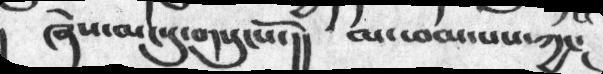ཞེས་མང་དུ་གསུངསོ་།།  མ་ཕམ་པས་ཀྱང།
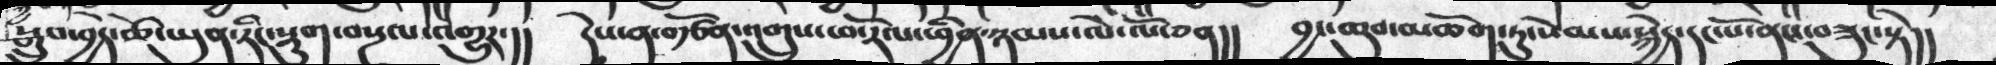སྒྲུབ་བྱེད་ཚེ་ཡུན་རིང་སྡུག་བསྔལ་འགྱུར་།།  དེས་ན་བརྩོན་འགྲུས་ཕ་རོལ་ཕྱིན་ཉམས་ལེ་ལོ་ཅན།།  བྱང་ཆུབ་མཆོག་ཏུ་སེམས་སྐྱེད་དང་པོ་ནང་བཟུང་སྟེ།།
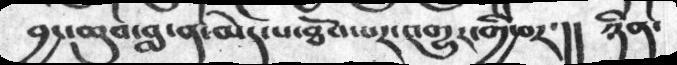བྱང་ཆུབ་བླ་ན་མེད་པ་ཐོབ་པར་འགྱུར་བར་།།  ཉིན་
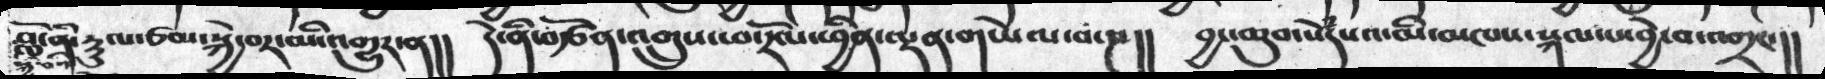བློ་ནི་རྱུལ་ཙམ་སྐྱེ་བར་མི་འགྱུར་ན།།   དེ་ནི་བརྩོན་འགྲུས་ཕ་རོལ་ལྡན་གཡེལ་བ་ཎ།།   བྱང་ཆུབ་སེཾདསའ་མི་མཁས་སྐལ་པ་བྱེད་བ་འགྲང་།།
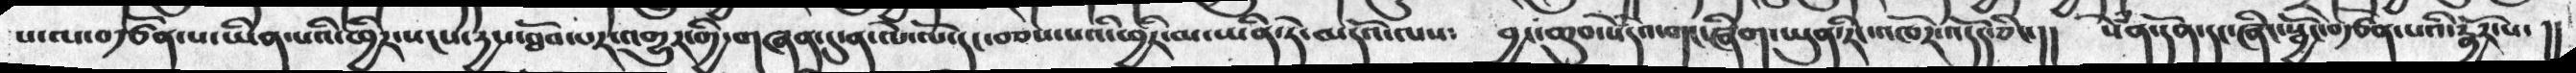པ་ལ་བརྩོན་པ་ཡིན་པའི་ཕྱིར་སངས་དྱས་ཐོབ་པར་འགྱུར་གྱི་གཞན་དུ་ན་ལེ་ལོ་དང་བཅས་པའི་ཕྱིར་མ་ཡིན་ཏེ་མདོའ་ལས༴  བྱང་ཆུབ་སེཾདཔའ་གང་ཞིག་ཡུན་རིང་འཁོར་འདོད་ཅིང།།   སེཾན་དོན་དང་ཞིང་སྦྱོང་བརྩོན་པའི་སྦྱོར་པ་།།
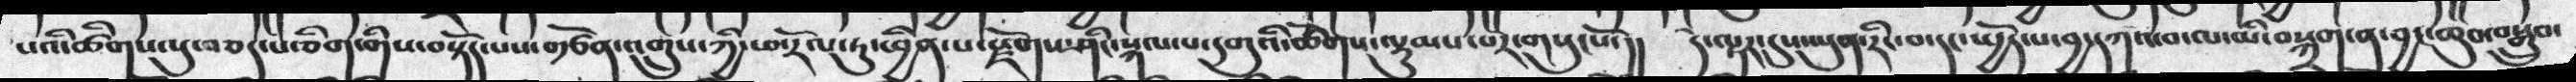པའི་ཚིགས་སུ་བཅད་པ་ཅིག་གིས་བསྟོད་པས་བརྩོན་འགྲུས་ཀྱི་ཕ་རོལ་ཏུ་ཕྱིན་པ་རྫོགས་ཤིང་སྐལ་པ་དགུའི་ཚོགས་ལྟུམས་པར་གསུངསོ་།།  དེ་ལྟར་དུ་ཡུན་རིང་བ་དང་སྤྱོད་པ་བྱ་དཀའ་བ་ལ་མི་བསྐྲག་ན་བྱང་ཆུབ་བསྒྲུབ་
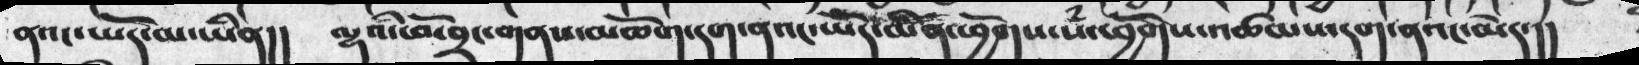ནའང་ཡོད་མ་ཡིན།།  ལྷའི་ཕོ་བྲང་གནས་མཆོག་དག་ནའང་ཡོད་མིན་ཕྱོགས་སཾ་ཕྱོགས་འཚམས་དག་ནའང་མེད་།།
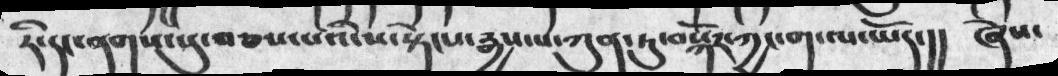རི་དང་ནགས་སུ་བཅས་པའི་ས་སྟེངས་རྒྱས་པ་ཀུན་ཏུ་བསྐོར་ཀྱང་ག་ལ་ཡོད་།།  ཞེས་
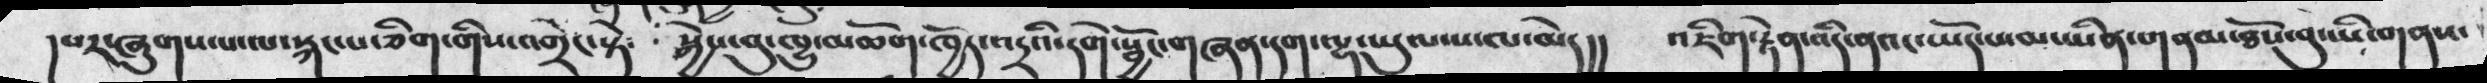དཔར་ཞུགས་པ་ལ་སྐང་པ་ཅིག་གིས་འགྲེང་སྟེ༴  སྐྱེས་བུ་ཁྱུ་མཆོག་ཁྱོད་འདྲའི་དགེ་སྦྱོང་གཞན་དག་ལྷ་ཡུལ་ས་ལ་མེད།།  འཇིག་རྟེན་འདི་ནའང་ཡོད་པ་མ་ཡིན་གནམ་ཐོས་བུ་ཡི་གནས་
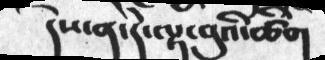དེས་ན་དེ་ལྟ་བུའི་ཚིག
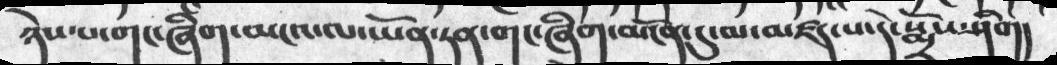ཉེས་པ་གང་ཞིག་མངའ་ལ་ཡོན་ཏན་གང་ཞིག་མངོན་དུ་མ་མཛད་པ་དེ་སྨྲོས་ཤིག།།
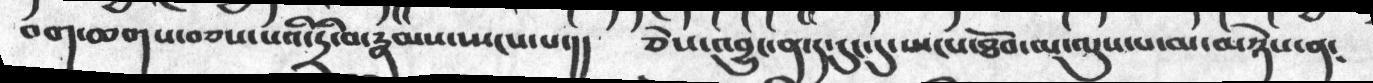བག་ཆགས་བཅས་པའི་དྲི་ན་རྣམས་སྤངས་པ་།།  ཅེས་འབྱུང་ན་ད་དུང་དུ་སྤངས་ཐོབ་མ་ལུས་མ་མཉེས་ན༴
